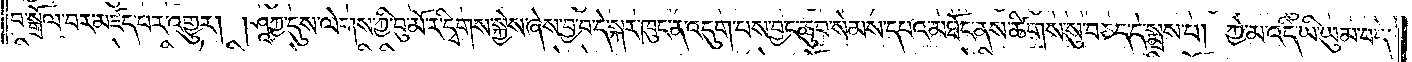བ་སྒྲོལ་བར་མཛད་པར་འགྱུར། །ཤཱཀྱ་དུས་ལེགས་ཀྱི་བུ་མོ་རི་དྭགས་སྐྱེས་ཞེས་བྱ་བ་དེ་སྐར་ཁུང་ན་འདུག་པས་བྱང་ཆུབ་སེམས་དཔའ་མཐོང་ནས་ཚིགས་སུ་བཅད་དེ་སྨྲས་པ། ཀྱེ་མ་འདི་ཡི་ཡུམ་བདེ་
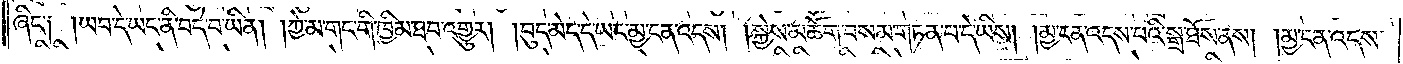ཞིང༌། །ཡབ་དེ་ཡང་ནི་བདེ་བ་ཡིན། །ཀྱེ་མ་གང་གི་ཁྱིམ་ཐབ་འགྱུར། །བུད་མེད་དེ་ཡང་མྱ་ངན་འདས། །སྐྱེས་མཆོག་བསམ་གཏན་པ་དེ་ཡིས། །མྱ་ངན་འདས་པའི་སྒྲ་ཐོས་ནས། །མྱ་ངན་འདས་
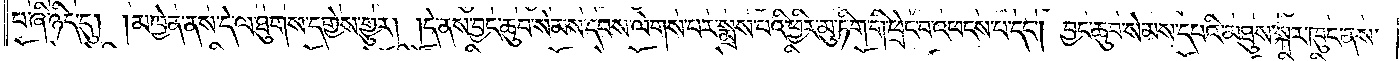པ་ཞི་ཉིད་དུ། །མཁྱེན་ནས་དེ་ལ་ཐུགས་དགྱེས་གྱུར། །དེ་ནས་བྱང་ཆུབ་སེམས་དཔས་ལེགས་པར་སྨྲས་པའི་ཕྱིར་མུ་ཏིག་གི་ཕྲེང་བ་འཕགས་པ་དང༌། བྱང་ཆུབ་སེམས་དཔའི་མཐུས་སྐར་ཁུང་ནས་
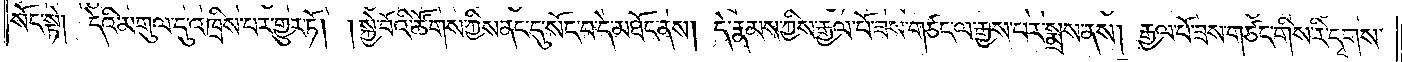སོང་སྟེ། དེའི་མགུལ་དུ་འཁྲིས་པར་གྱུར་ཏོ། །སྐྱེ་བོའི་ཚོགས་ཀྱིས་ནང་དུ་སོང་བ་དེ་མཐོང་ནས། དེ་རྣམས་ཀྱིས་རྒྱལ་པོ་ཟས་གཙང་ལ་རྒྱས་པར་སྨྲས་ནས། རྒྱལ་པོ་ཟས་གཙང་གིས་རི་དྭགས་
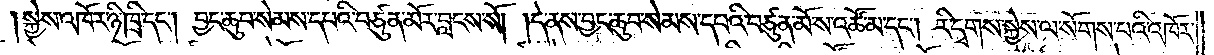།སྐྱེས་འཁོར་ཉི་ཁྲི་དང༌། བྱང་ཆུབ་སེམས་དཔའི་བཙུན་མོར་བླངས་སོ། །དེ་ནས་བྱང་ཆུབ་སེམས་དཔའི་བཙུན་མོ་ས་འཚོ་མ་དང༌། རི་དྭགས་སྐྱེས་ལ་སོགས་པའི་འཁོར་
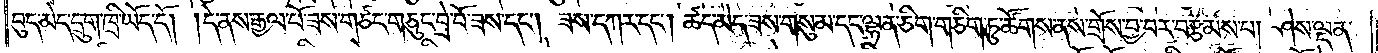བུད་མེད་དྲུག་ཁྲི་ཡོད་དོ། དེ་ནས་རྒྱལ་པོ་ཟས་གཙང་གཅུང་བྲེ་བོ་ཟས་དང༌། ཟས་དཀར་དང༌། ཚད་མེད་ཟས་གསུམ་དང་ལྷན་ཅིག་གཅིག་ཏུ་ཚོགས་ནས་གྲོས་བྱ་བར་བརྩམས་པ། ཤེས་ལྡན་
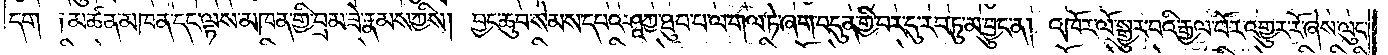དག །མཚན་མཁན་དང་ལྟས་མཁན་གྱི་བྲམ་ཟེ་རྣམས་ཀྱིས། བྱང་ཆུབ་སེམས་དཔའ་ཤཱཀྱ་ཐུབ་པ་ལ་གལ་ཏེ་ཞག་བདུན་གྱི་བར་དུ་རབ་ཏུ་མ་བྱུང་ན། འཁོར་ལོ་སྒྱུར་བའི་རྒྱལ་པོར་འགྱུར་རོ་ཞེས་ལུང་
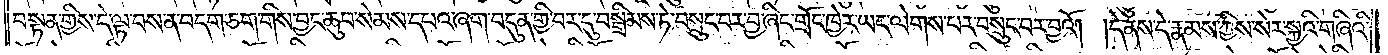བསྟན་གྱིས་དེ་ལྟ་བས་ན་བདག་ཅག་གིས་བྱང་ཆུབ་སེམས་དཔའ་ཞག་བདུན་གྱི་བར་དུ་བསྒྲིམས་ཏེ་བསྲུང་བར་བྱ་ཞིང་གྲོང་ཁྱེར་ཡང་ལེགས་པར་བསྲུང་བར་བྱའོ། །དེ་ནས་དེ་རྣམས་ཀྱིས་སེར་སྐྱའི་གཞིའི་
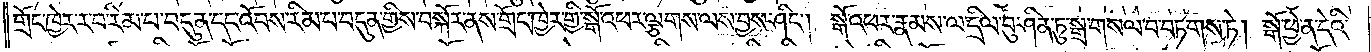གྲོང་ཁྱེར་ར་བ་རིམ་པ་བདུན་དང་འོབས་རིམ་པ་བདུན་གྱིས་བསྐོར་ནས་གྲོང་ཁྱེར་གྱི་སྒོ་འཕར་ལྕགས་ལས་བྱས་ཤིང༌། སྒོ་འཕར་རྣམས་ལ་དྲིལ་བུ་ཤིན་ཏུ་སྒྲ་གསལ་བ་བཏགས་ཏེ། སྒོ་ཕྱེ་ན་དེའི་
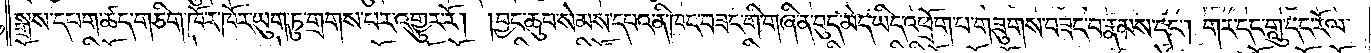སྒྲས་དཔག་ཚད་གཅིག་ཁོ་ར་ཁོར་ཡུག་ཏུ་གྲགས་པར་འགྱུར་རོ། །བྱང་ཆུབ་སེམས་དཔའ་ནི་ཁང་བཟང་གི་གཞི་ན་བུད་མེད་ཡིད་འཕྲོག་པ་གཟུགས་བཟང་བ་རྣམས་དང༌། གར་དང་གླུ་དང་རོལ་
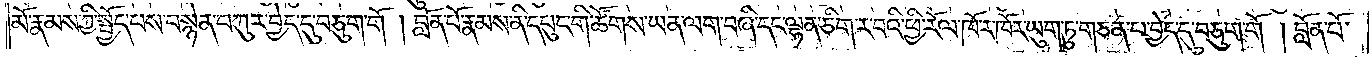མོ་རྣམས་ཀྱི་སྤྱོད་པས་བསྙེན་བཀུར་བྱེད་དུ་བཅུག་གོ །བློན་པོ་རྣམས་ནི་དཔུང་གི་ཚོགས་ཡན་ལག་བཞི་དང་ལྷན་ཅིག་ར་བའི་ཕྱི་རོལ་ཁོར་ཁོར་ཡུག་ཏུ་གཅན་པ་བྱེད་དུ་བཅུག་གོ །བློན་པོ་
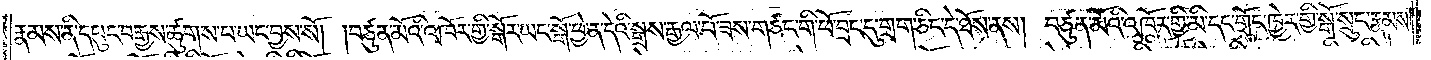རྣམས་ནི་དཔུང་བརྒྱས་ཚུགས་པ་ཡང་བྱས་སོ། །བཙུན་མོའི་འཁོར་གྱི་སྒོར་ཡང་སྒོ་ཕྱེ་ན་དེའི་སྒྲས་རྒྱལ་པོ་ཟས་གཙང་གི་ཕོ་བྲང་དུ་གྲག་ཅིང་དེ་ཐོས་ནས། བཙུན་མོའི་འཁོར་གྱི་མི་དང་གྲོང་ཁྱེར་གྱི་སྒོ་སྲུང་རྣམས་
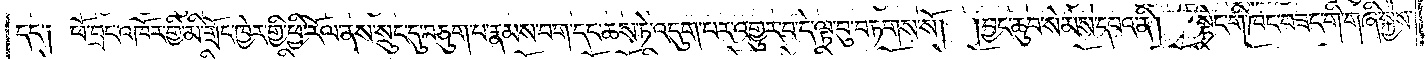དང་༑ ཕོ་བྲང་འཁོར་གྱི་མི་གྲོང་ཁྱེར་གྱི་ཕྱི་རོལ་ནས་སྲུང་དུ་བཅུག་པ་རྣམས་བག་དང་ཆས་ཏེ་འདུག་པར་འགྱུར་བ་དེ་ལྟ་བུ་བཏགས་སོ། །བྱང་ཆུབ་སེམས་དཔའ་ནི། སྟེང་གི་ཁང་བཟང་གི་གཞི་སྐྱེས་
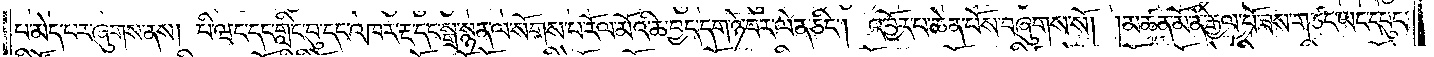པ་མེད་པར་ཞུགས་ནས། པི་ཝང་དང་གླིང་བུ་དང་འཁར་རྔ་དང་སྒྲ་སྙན་ལ་སོགས་པ་རོལ་མོའི་ཆ་བྱད་དག་ཉེ་བར་ལེན་ཅིང༌། འབྱོར་པ་ཆེན་པོས་བཞུགས་སོ། །མཚན་མོ་ནི་རྒྱལ་པོ་ཟས་གཙང་ཡང་དཔུང་
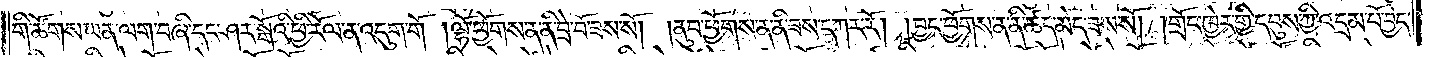གི་ཚོགས་ཡན་ལག་བཞི་དང་ཤར་སྒོའི་ཕྱི་རོལ་ན་འདུག་གོ །ལྷོ་ཕྱོགས་ན་ནི་བྲེ་བོ་ཟས་སོ། །ནུབ་ཕྱོགས་ན་ནི་ཟས་དཀར་རོ། །བྱང་ཕྱོགས་ན་ནི་ཚད་མེད་ཟས་སོ། །གྲོང་ཁྱེར་གྱི་དབུས་ཀྱི་འདྲམ་པོ་བྱེད་
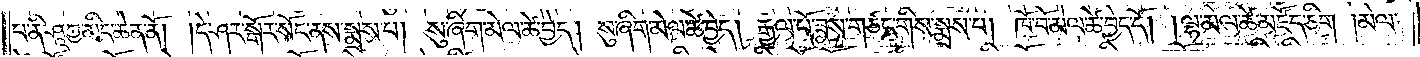པ་ནི་ཤཱཀྱ་མིང་ཆེན་ནོ། །དེ་ཤར་སྒོར་སོང་ནས་སྨྲས་པ། སུ་ཞིག་མེལ་ཚེ་བྱེད། སུ་ཞིག་མེལ་ཚེ་བྱེད། རྒྱལ་པོ་ཟས་གཙང་གིས་སྨྲས་པ། ཁོ་བོ་མེལ་ཚེ་བྱེད་དོ། །ལྷ་མེལ་ཚེ་མཛོད་ཅིག །མེལ་
